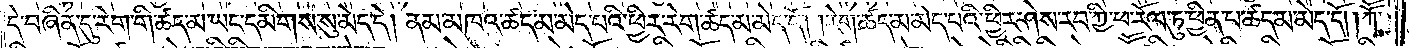དེ་བཞིན་དུ་རེག་གི་ཚད་མ་ཡང་དམིགས་སུ་མེད་དེ། ནམ་མཁའ་ཚད་མ་མེད་པའི་ཕྱིར་རེག་ཚད་མ་མེད་དོ། །རེག་ཚད་མ་མེད་པའི་ཕྱིར་ཤེས་རབ་ཀྱི་ཕ་རོལ་ཏུ་ཕྱིན་པ་ཚད་མ་མེད་དོ། །ཀཽ་
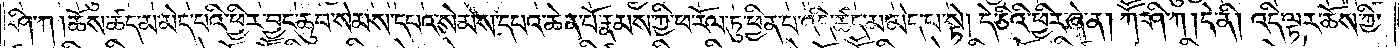ཤི་ཀ །ཆོས་ཚད་མ་མེད་པའི་ཕྱིར་བྱང་ཆུབ་སེམས་དཔའ་སེམས་དཔའ་ཆེན་པོ་རྣམས་ཀྱི་ཕ་རོལ་ཏུ་ཕྱིན་པ་འདི་ཚད་མ་མེད་པ་སྟེ། དེ་ཅིའི་ཕྱིར་ཞེ་ན། ཀཽ་ཤི་ཀ །དེ་ནི། འདི་ལྟར་ཆོས་ཀྱི་
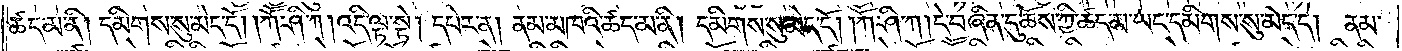ཚད་མ་ནི། དམིགས་སུ་མེད་དོ། །ཀཽ་ཤི་ཀ །འདི་ལྟ་སྟེ། དཔེར་ན། ནམ་མཁའི་ཚད་མ་ནི། དམིགས་སུ་མེད་དོ། །ཀཽ་ཤི་ཀ། དེ་བཞིན་དུ་ཆོས་ཀྱི་ཚད་མ་ཡང་དམིགས་སུ་མེད་དེ། ནམ་
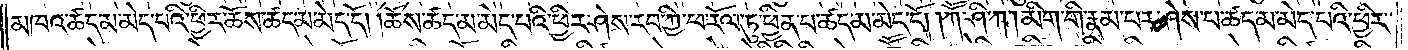མཁའ་ཚད་མ་མེད་པའི་ཕྱིར་ཆོས་ཚད་མ་མེད་དོ། །ཆོས་ཚད་མ་མེད་པའི་ཕྱིར་ཤེས་རབ་ཀྱི་ཕ་རོལ་ཏུ་ཕྱིན་པ་ཚད་མ་མེད་དོ། །ཀཽ་ཤི་ཀ། མིག་གི་རྣམ་པར་ཤེས་པ་ཚད་མ་མེད་པའི་ཕྱིར་
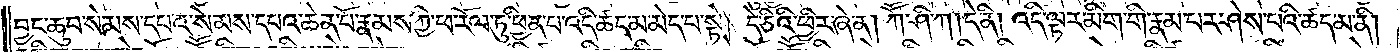བྱང་ཆུབ་སེམས་དཔའ་སེམས་དཔའ་ཆེན་པོ་རྣམས་ཀྱི་ཕ་རོལ་ཏུ་ཕྱིན་པ་འདི་ཚད་མ་མེད་པ་སྟེ། དེ་ཅིའི་ཕྱིར་ཞེ་ན། ཀཽ་ཤི་ཀ། དེ་ནི། འདི་ལྟར་མིག་གི་རྣམ་པར་ཤེས་པའི་ཚད་མ་ནི།
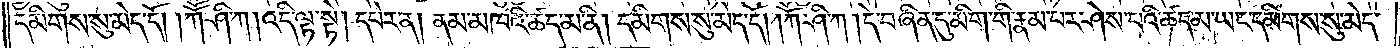དམིགས་སུ་མེད་དོ། །ཀཽ་ཤི་ཀ །འདི་ལྟ་སྟེ། དཔེར་ན། ནམ་མཁའི་ཚད་མ་ནི། དམིགས་སུ་མེད་དོ། །ཀཽ་ཤི་ཀ །དེ་བཞིན་དུ་མིག་གི་རྣམ་པར་ཤེས་པའི་ཚད་མ་ཡང་དམིགས་སུ་མེད་
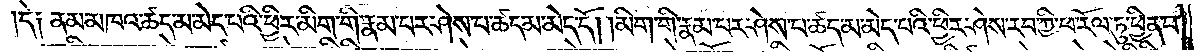དེ༏ ནམ་མཁའ་ཚད་མ་མེད་པའི་ཕྱིར་མིག་གི་རྣམ་པར་ཤེས་པ་ཚད་མ་མེད་དོ། །མིག་གི་རྣམ་པར་ཤེས་པ་ཚད་མ་མེད་པའི་ཕྱིར་ཤེས་རབ་ཀྱི་ཕ་རོལ་ཏུ་ཕྱིན་པ་
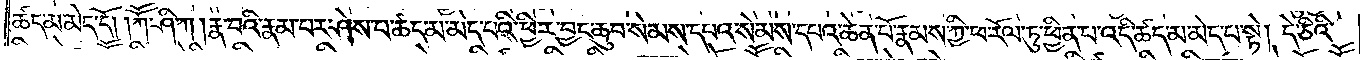ཚད་མ་མེད་དོ། །ཀཽ་ཤི་ཀ །རྣ་བའི་རྣམ་པར་ཤེས་པ་ཚད་མ་མེད་པའི་ཕྱིར་བྱང་ཆུབ་སེམས་དཔའ་སེམས་དཔའ་ཆེན་པོ་རྣམས་ཀྱི་ཕ་རོལ་ཏུ་ཕྱིན་པ་འདི་ཚད་མ་མེད་པ་སྟེ། དེ་ཅིའི་
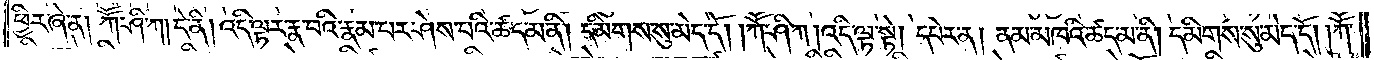ཕྱིར་ཞེ་ན། ཀཽ་ཤི་ཀ། དེ་ནི། འདི་ལྟར་རྣ་བའི་རྣམ་པར་ཤེས་པའི་ཚད་མ་ནི། དམིགས་སུ་མེད་དོ། །ཀཽ་ཤི་ཀ །འདི་ལྟ་སྟེ། དཔེར་ན། ནམ་མཁའི་ཚད་མ་ནི། དམིགས་སུ་མེད་དོ། །ཀཽ་
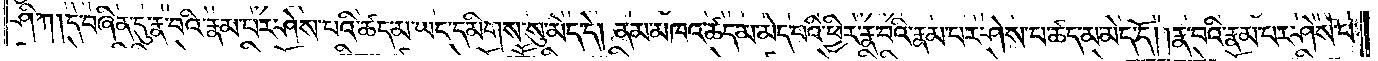ཤི་ཀ། དེ་བཞིན་དུ་རྣ་བའི་རྣམ་པར་ཤེས་པའི་ཚད་ཀྱང་དམིགས་སུ་མེད་དེ། ནམ་མཁའ་ཚད་མ་མེད་པའི་ཕྱིར་རྣ་བའི་རྣམ་པར་ཤེས་པ་ཚད་མ་མེད་དོ། །རྣ་བའི་རྣམ་པར་ཤེས་པ་
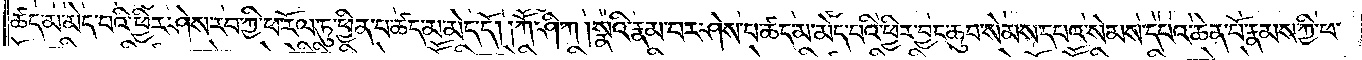ཚད་མ་མེད་པའི་ཕྱིར་ཤེས་རབ་ཀྱི་ཕ་རོལ་ཏུ་ཕྱིན་པ་ཚད་མ་མེད་དོ། །ཀཽ་ཤི་ཀ །སྣའི་རྣམ་པར་ཤེས་པ་ཚད་མ་མེད་པའི་ཕྱིར་བྱང་ཆུབ་སེམས་དཔའ་སེམས་དཔའ་ཆེན་པོ་རྣམས་ཀྱི་ཕ་
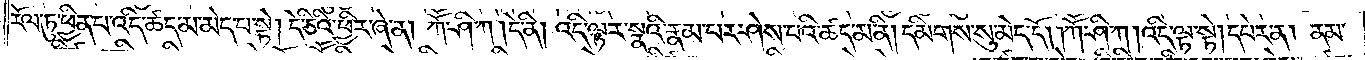རོལ་ཏུ་ཕྱིན་པ་འདི་ཚད་མ་མེད་པ་སྟེ། དེ་ཅིའི་ཕྱིར་ཞེ་ན། ཀཽ་ཤི་ཀ །དེ་ནི། འདི་ལྟར་སྣའི་རྣམ་པར་ཤེས་པའི་ཚད་མ་ནི། དམིགས་སུ་མེད་དོ། །ཀཽ་ཤི་ཀ །འདི་ལྟ་སྟེ། དཔེར་ན། ནམ་
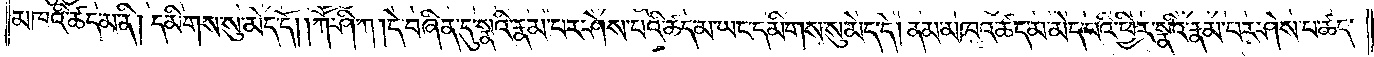མཁའི་ཚད་མ་ནི། དམིགས་སུ་མེད་དོ། །ཀཽ་ཤི་ཀ །དེ་བཞིན་དུ་སྣའི་རྣམ་པར་ཤེས་པའི་ཚད་མ་ཡང་དམིགས་སུ་མེད་དེ། ནམ་མཁའ་ཚད་མ་མེད་པའི་ཕྱིར་སྣའི་རྣམ་པར་ཤེས་པ་ཚད་
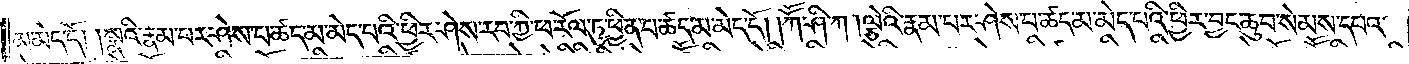མ་མེད་དོ། །སྣའི་རྣམ་པར་ཤེས་པ་ཚད་མ་མེད་པའི་ཕྱིར་ཤེས་རབ་ཀྱི་ཕ་རོལ་ཏུ་ཕྱིན་པ་ཚད་མ་མེད་དོ། །ཀཽ་ཤི་ཀ །ལྕེའི་རྣམ་པར་ཤེས་པ་ཚད་མ་མེད་པའི་ཕྱིར་བྱང་ཆུབ་སེམས་དཔའ་
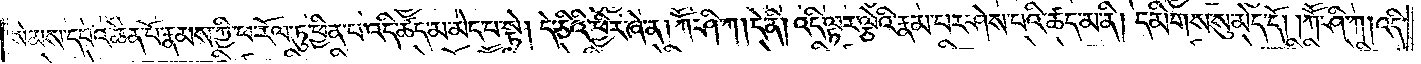སེམས་དཔའ་ཆེན་པོ་རྣམས་ཀྱི་ཕ་རོལ་ཏུ་ཕྱིན་པ་འདི་ཚད་མ་མེད་པ་སྟེ། དེ་ཅིའི་ཕྱིར་ཞེ་ན། ཀཽ་ཤི་ཀ། དེ་ནི། འདི་ལྟར་ལྕེའི་རྣམ་པར་ཤེས་པའི་ཚད་མ་ནི། དམིགས་སུ་མེད་དོ། །ཀཽ་ཤི་ཀ། འདི་
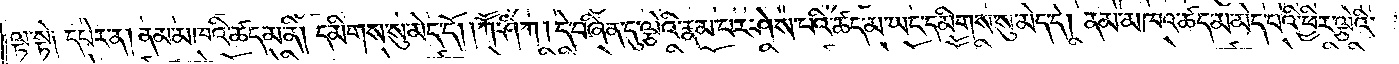ལྟ་སྟེ༏ དཔེར་ན། ནམ་མཁའི་ཚད་མ་ནི། དམིགས་སུ་མེད་དོ། །ཀཽ་ཤི་ཀ །དེ་བཞིན་དུ་ལྕེའི་རྣམ་པར་ཤེས་པའི་ཚད་མ་ཡང་དམིགས་སུ་མེད་དེ། ནམ་མཁའ་ཚད་མ་མེད་པའི་ཕྱིར་ལྕེའི་
